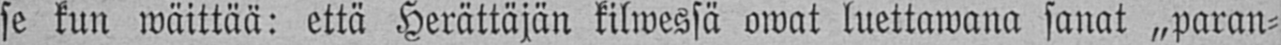se kun wäittää: että Herättäjän kilwessä owat luettawana sanat „paran-
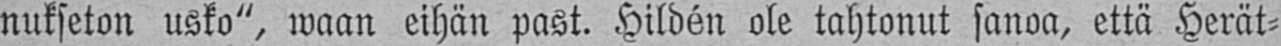nukseton usko", waan eihän past. Hildén ole tahtonut sanoa, että Herät-
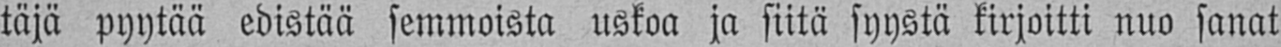täjä pyytää edistää semmoista uskoa ja siitä syystä kirjoitti nuo sanat
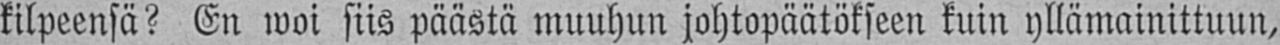kilpeensä? En woi siis päästä muuhun johtopäätökseen kuin yllämainittuun,
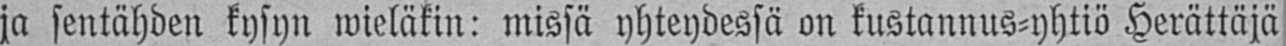ja sentähden kysyn wieläkin: missä yhteydessä on kustannus-yhtiö Herättäjä
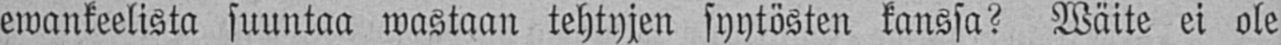ewankeelista suuntaa wastaan tehtyjen syytösten kanssa? Wäite ei ole
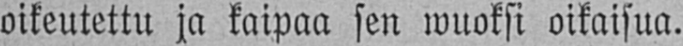oikeutettu ja kaipaa sen wuoksi oikaisua.
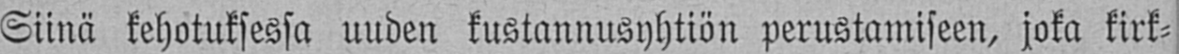Siinä kehotuksessa uuden kustannusyhtiön perustamiseen, joka kirk-
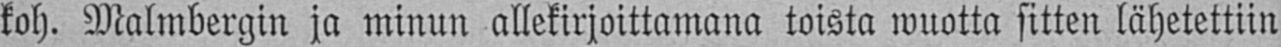koh. Malmbergin ja minun allekirjoittamana toista wuotta sitten lähetettiin
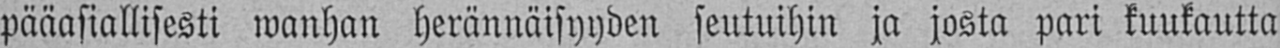pääasiallisesti wanhan herännäisyyden seutuihin ja josta pari kuukautta
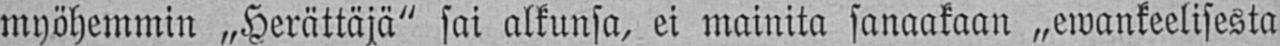myöhemmin „Herättäjä˝ sai alkunsa, ei mainita sanaakaan „ewankeelisesta
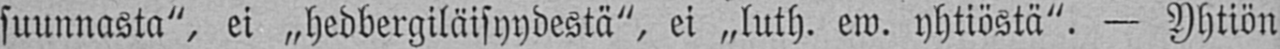suunnasta", ei „hedbergiläisyydestä", ei „luth. ew. yhtiöstä". — Yhtiön
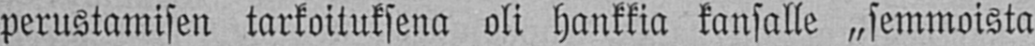perustamisen tarkoituksena oli hankkia kansalle „semmoista
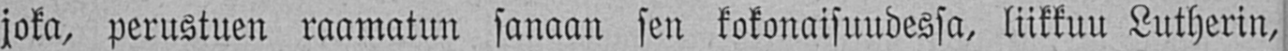joka, perustuen raamatun sanaan sen kokonaisuudessa, liikkuu Lutherin,
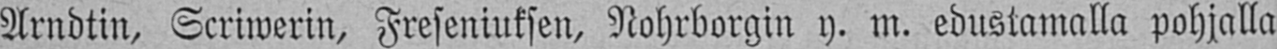Arndtin, Scriwerin, Freseniuksen, Nohrborgin y. m, edustamalla pohjalla
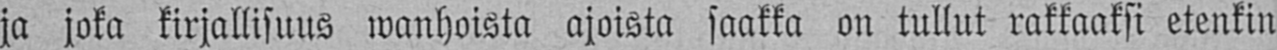ja joka kirjallisuus wanhoista ajoista saakka on tullut rakkaaksi etenkin
